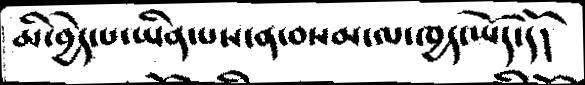མི་བྱེད་པ་ཡིན་པས་ན་བསམ་ལ་ཁྱད་ཡོད་དོ།
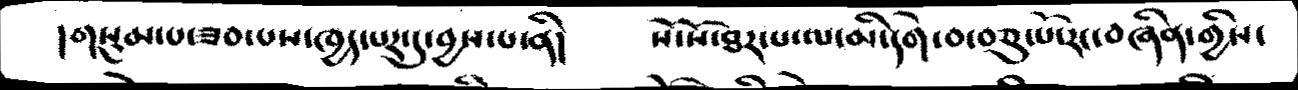།གསུམ་པ་ཟབ་པས་ཁྱད་པར་དུ་བྱས་པ་ནི།   སོ་སོ་ཐར་པ་ལ་མི་དགེ་བ་བཅུ་པོ་རང་བཞིན་གྱིས་
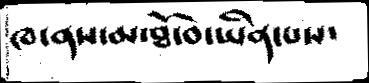ཁ་ནས་མ་ཐོ་བ་ཡིན་པས་
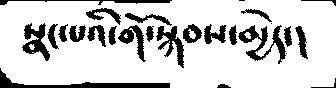སྣང་པའི་གོ་སྐབས་མྱེད་།
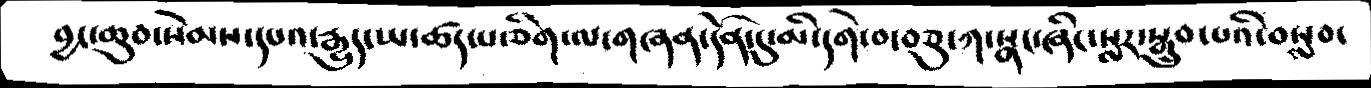བྱང་ཆུབ་སེམས་དཔའ་རྒྱུད་ཡ་ཚད་པ་ཅིག་ལ་གཞན་དོན་དུ་མི་དགེ་བ་བཅུ་ཀ་སྣང་ཞིང་སླར་སྒྲུབ་པའི་བསླབ་
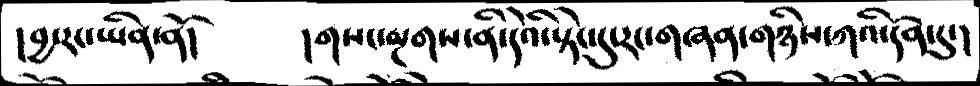།བྱ་རང་ཡིན་ནོ།   །གསང་སྔགས་ནི་དེའི་སྟེང་དུ་རང་གཞན་གཉིས་ཀའི་དོན་དུ་།
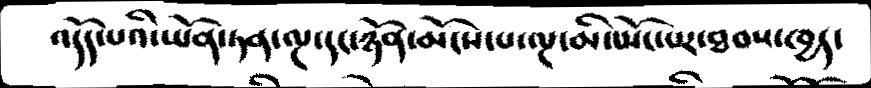འདོད་པའི་ཡོན་ཏན་ལྔ་དང་ཉོན་མོངས་པ་ལྔ་མི་སྤོང་པར་ཐབས་ཁྱད་
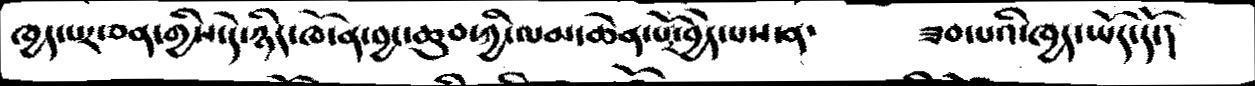ཁྱད་པར་ཅན་གྱིས་དེ་ཉིད་ཁོ་ན་བྱང་ཆུབ་ཀྱི་ལམ་ཆེན་པོ་བྱེད་པས་ན་   ཟབ་པའི་ཁྱད་ཡོད་དོ་།
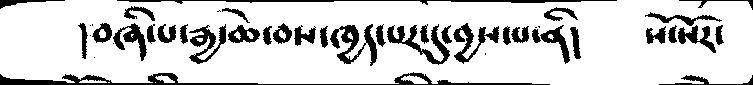།བཞི་པ་རྒྱ་ཆེ་བས་ཁྱད་པར་དུ་བྱས་པ་ནི།   སོ་སོར་
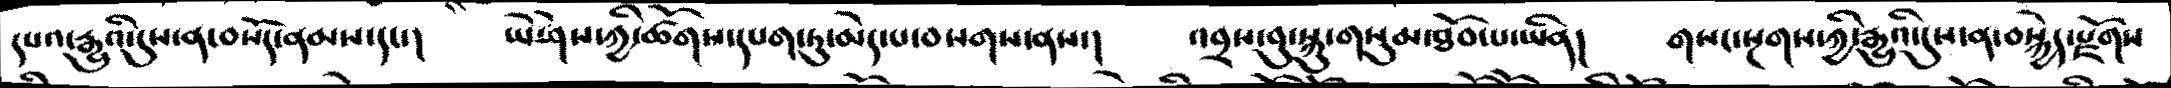དཔའ་རྒྱུའི་དུས་ན་བསོད་ནམས་དང་།   ཡེ་ཤེས་ཀྱི་ཚོགས་དཔག་ཏུ་མེད་པ་བསགས་ནས།  འབྲས་བུ་སྐུ་གསུམ་ཐོབ་པ་ཡིན།  གསང་སྔགས་ཀྱི་རྒྱུའི་དུས་ན་བསྐྱེད་རྫོགས
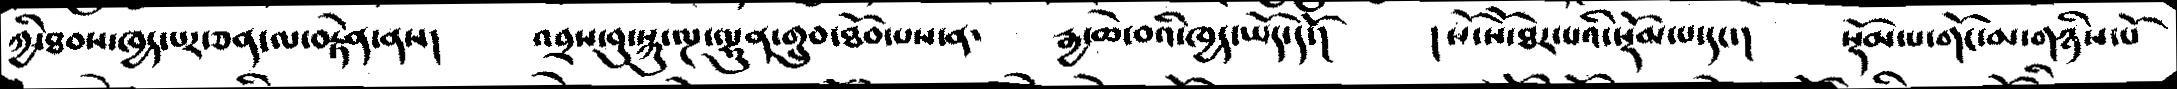ཀྱི་ཐབས་ཁྱད་པར་ཅན་ལ་བརྟེན་ནས།   འབྲས་བུ་སྐུ་ལྔ་ལྷུན་གྲུབ་ཐོབ་པས་ན་   རྒྱ་ཆེ་བའི་ཁྱད་ཡོད་དོ།   །སོ་སོར་ཐར་པའི་སྡོམ་པ་དང་།   སྡོམ་པ་གོང་མ་གཉིས་པོ
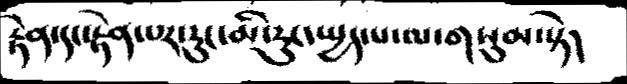རྟེན་དང་རྟེན་པར་རུང་མི་རུང་སྤྱད་པ་ལ་གསུམ་སྟེ།
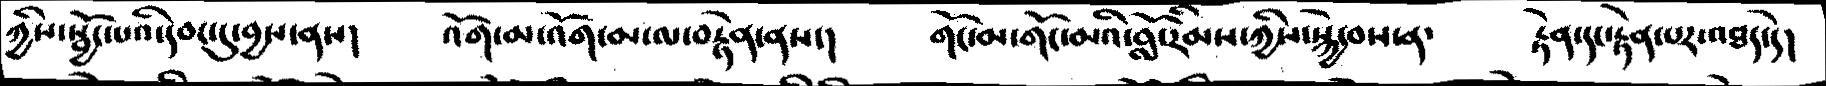ཀྱིས་སྦྱོང་པའི་དབང་དུ་བྱས་ནས།   འོག་མ་འོག་མ་ལ་བརྟེན་ནས།   གོང་མ་གོང་མའི་བློ་རིམས་ཀྱིས་སྐྱེ་བས་ན་   རྟེན་དང་རྟེན་པར་འཐད་ད་ེ།
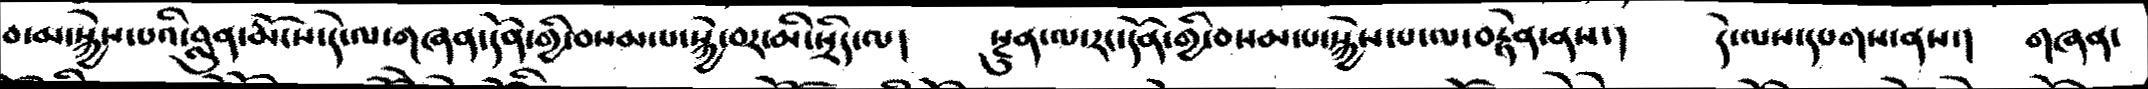བ་མ་སྐྱེས་པའི་བླུན་རྨོངས་དེ་ལ་གཞན་དོན་གྱི་བསམ་པ་སྐྱེ་བར་མི་སྲིད་ལ།   སྔུན་ལ་རང་དོན་གྱི་བསམ་པ་སྐྱེས་པ་ལ་བརྟེན་ནས་།   དེ་ལས་དཔགས་ནས་།   གཞན་
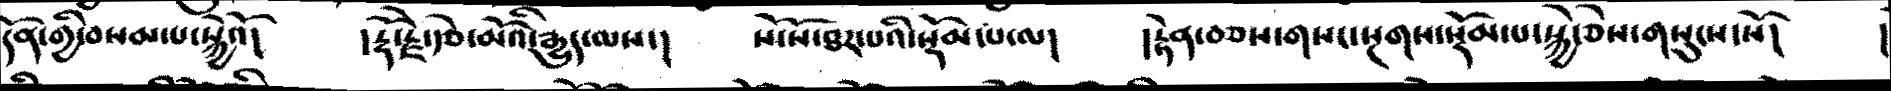དོན་གྱི་བསམ་པ་སྐྱེའོ།   །རྡོ་རྗེ་རྩེ་མོའི་རྒྱུད་ལས་།   སོ་སོ་ཐར་པའི་སྡོམ་པ་ལ།   །རྟེན་བཅས་གསང་སྔགས་སྡོམ་པ་སྐྱེ་ཅེས་གསུངས་སོ།   །
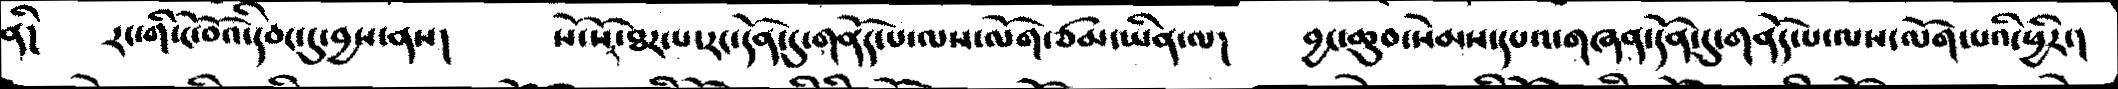ནི།   རང་གི་ངོ་བོའི་དབང་དུ་བྱས་ནས།   སོ་སོར་ཐར་པ་རང་དོན་དུ་གནོད་པ་ལས་ལོག་ཙམ་ཡིན་ལ།   བྱང་ཆུབ་སེམས་དཔའ་གཞན་དོན་དུ་གནོད་པ་ལས་ལོག་པའི་ཕྱིར་།
